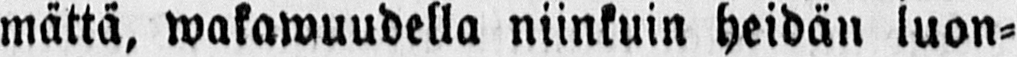mättä, wakawuudella niinkuin heidän luon-
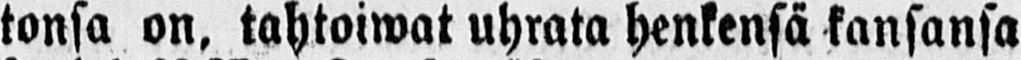tonsa on, tahtoiwat uhrata henkensä kansansa
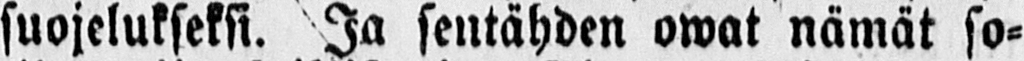suojelukseksi. Ja sentähden omat nämät so-
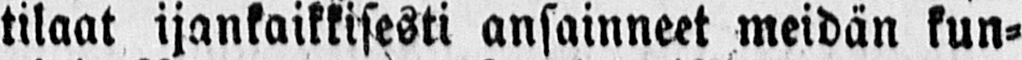tilaat ijankaikkisesti ansainneet meidän kun-
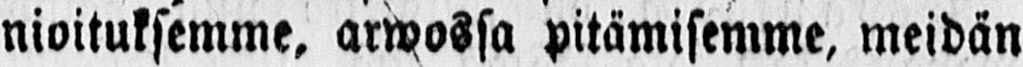nioituksemme, arwossa pitämisemme, meidän
